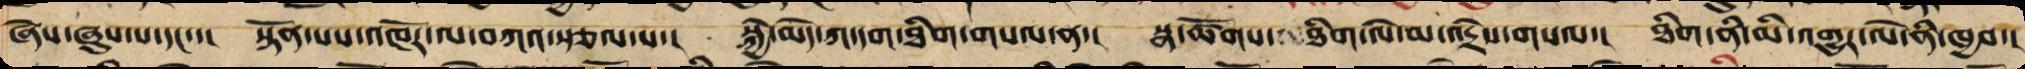ཞེས་ཞུས་པ་དང་་། སྟོན་པས་འཁོར་ལ་བཀའ་སྩལ་པ་། སྐྱེ་མེད་ཀ་དག་ཐིག་གསལ་ན་། སྣ་ཚོགས་ ཐིག་ལེ་མ་འདྲེས་གསལ་། ཐིག་ནི་མི་འགྱུར་ལེ་ནི་ཁྱབ་།
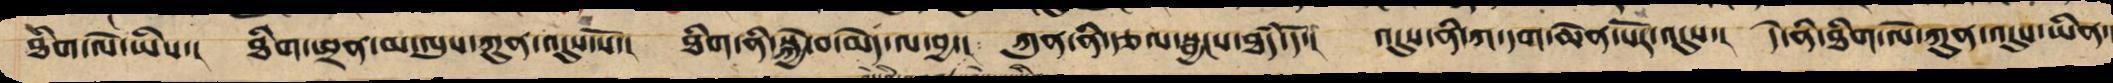ཐིག་ལེ་ཡིས་། ཐིག་ཕྲན་མ་ལུས་ཀུན་འདུས་སོ་། ཐིག་ནི་སྐྱེ་བ་མེད་ལ་བྱ་། ཀུན་ནི་རྩལ་སྣང་ཐདཾ་དོ་། འདུས་ནི་ཀ་དག་ཆེན་པོར་འདུས་། དེ་ནི་ཐིག་ལེ་ཀུན་འདུས་ཡིན་
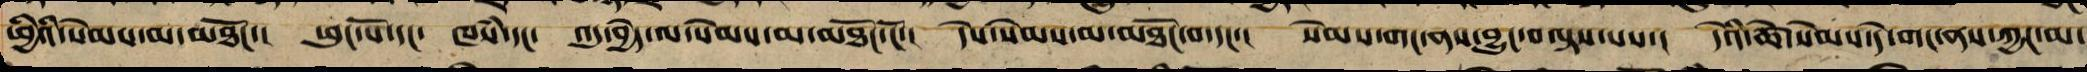ཕྱིའི་སེམས་མཐོང་། ཕུང་པོ་དང་ ཁཾས་དང་ འདུ་བྱེད་ལ་སེམས་མ་མཐོང་ངོ་། དེས་སེམས་མ་མཐོང་བ་དང་། སེམས་གང་ནས་བྱུང་བལྟས་པས་། དེའི་ཚེ་སེམས་དེ་གང་ནས་ཀྱང་མ་
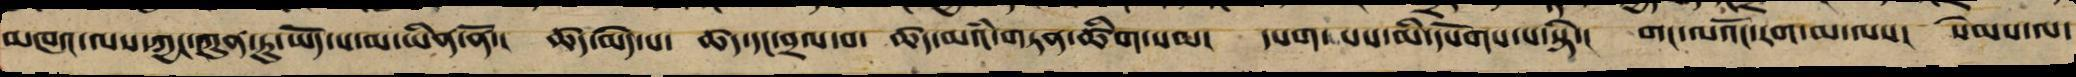མཁའ་ལས་ཀྱང་ཀུན་ཏུ་ཡོད་པ་མ་ཡིན་ནོ་། ཚད་མེད་པ་ ཚད་དང་བྲལ་བ་ ཚད་མའཾ་གཏན་ཚིག་སམ་ དཔག་པས་མི་དཔོགས་པ་སྟེ་། གང་ལའོང་རག་མ་ལས། སེམས་ལ་
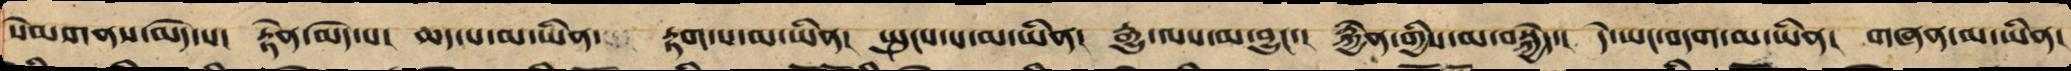སེམས་གནས་མེད་པ། རྟེན་མེད་པ། ཆད་པ་མ་ཡིན་ རྟག་པ་མ་ཡིན། སྤུངས་པ་མ་ཡིན། རྒྱུ་ལས་མ་བྱུང་། རྐྱེན་གྱིས་མ་བསྐྱེད་། དེ་ཡང་བདག་མ་ཡིན། གཞན་མ་ཡིན།
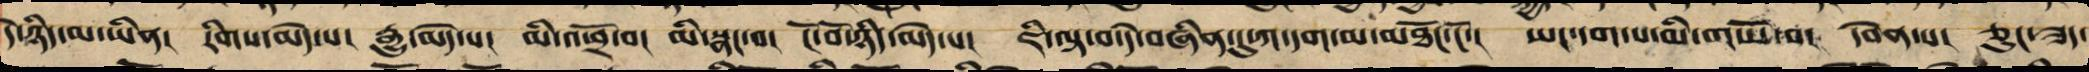དེ་ཉིད་མ་ཡིན། རིགས་མེད་པ། རྒྱུ་མེད་པ། མི་འཕྲོ་བ། མི་སྣང་བ། ངོ་བོ་ཉིད་མེད་པ། ཇི་ལྟ་བ་དེ་བཞིན་དུ་ཀ་དག་མ་མཐོང་ངོ་། ཡང་དག་པ་མི་གཡོ་བ། དབེན་པ། ཅུང་ཟད་
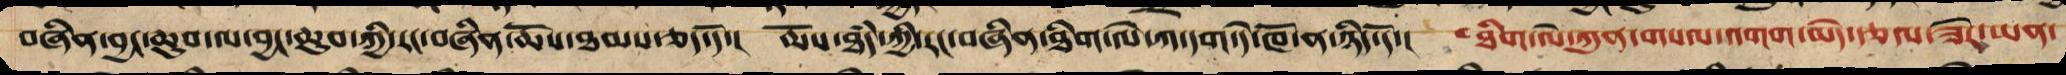བཞིན་བྱང་ཆུབ་ལ་བྱང་ཆུབ་ཀྱི་རང་བཞིན་ཆོས་ཐམས་ཅད་དོ་། ཆོས་ཐདཾ་ཀྱི་རང་བཞིན་ཐིག་ལེ་ཀ་དག་དེ་ཁོ་ན་ཉིད་དོ་། ཐིག་ལེ་ཀུན་གསལ་འགག་མེད་རྩལ་ཟᨓར་ཡན་
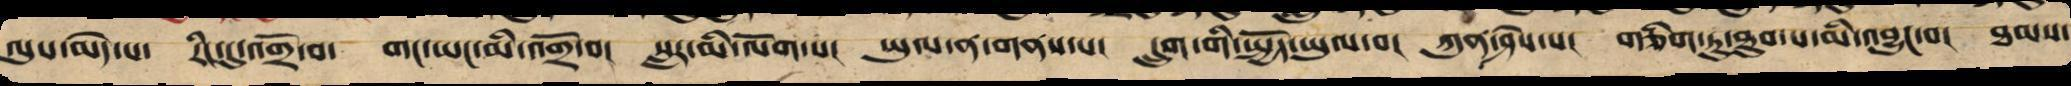ལུས་མེད་པ་ རིང་དུ་འགྲོ་བ་ གང་ཡང་མི་འགྲོ་བ། སླར་མི་ལོག་པ། ཡུལ་ན་གནས་པ། དྲུག་གི་སྤྱོད་ཡུལ་བ། ཀུན་ཤེས་པ། གཅིག་ཏུ་ཐུབ་པ་མི་འབྱུང་བ། ཐམས་
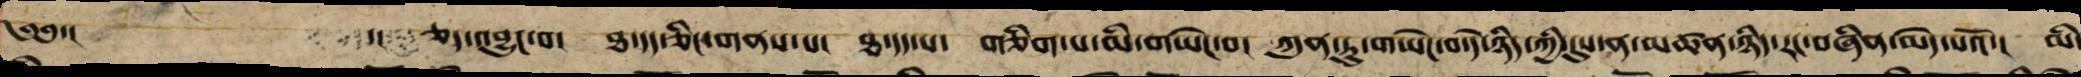༄༅་། ་། ཅད་འབྱུང་བ། ཐ་དད་ཅིང་གནས་པ། ཐ་དད་པ་ གཅིག་པ་མི་གཡེང་བ། ཀུན་ཏུ་གཡེང་བ་དེ་ཉིད་ཀྱི་དུས་ན་མཚན་ཉིད་རང་བཞིན་མེད་པའོ་། མི་
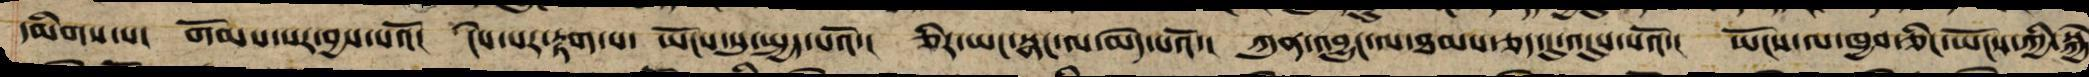དམིགས་པ། གོམས་པར་བྱས་པའོ། ངེས་པར་རྟག་པ་ ཡོངས་སུ་སྤྱད་པའོ་། ཅིར་ཡང་སྣང་ལ་མེད་པའོ་། ཀུན་འབྱུང་ལ་ཐམས་ཅད་དུ་འདུས་པའོ་། ཡོངས་ལ་ཁྱབ་ཅིང་ཡོངས་ཀྱི་སྐྱེ
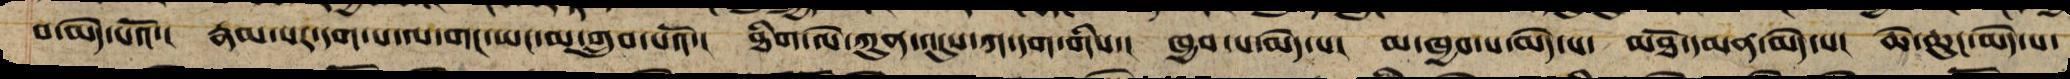བ་མེད་པའོ་། རྣམ་པར་དག་པ་ལ་གང་ཡང་མ་གྲུབ་པའོ་། ཐིག་ལེ་ཀུན་འདུས་ཀ་དག་གིས་། ཁྱབ་པ་མེད་པ། མ་ཁྱབ་པ་མེད་པ་ མཐོ་དམན་མེད་པ། ཆེ་ཆུང་མེད་པ་
